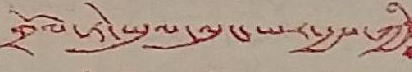གྲོལ་ཏེ་ཡུལ་ལུང་ཡར་རྒྱས་ཀྱི
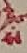ས
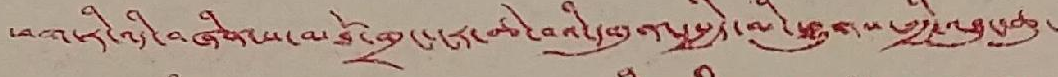ཕག་རི་འདི་བཞིན་ས་མཐོ་གྲང་ངར་ཆེ་བའི་དགུན་དཔྱིད་མི་ཕྱུགས་ཀྱི་འཐུང་ཆུ་
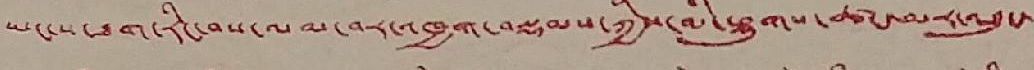ཡང་ས་ཐག་རིང་བས་ལམ་བར་འཁྱག་བསྡམས་ཀྱིས་མི་ཕྱུགས་ཚང་མར་འཐུང་
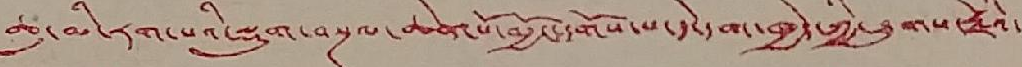ཆུ་མི་རག་པའི་སྡུག་བསྔལ་ཆེན་པོ་མྱོང་དགོས་པ་དེ་དག་ཁྱེད་ཀྱི་ཐུགས་རྗེའི་
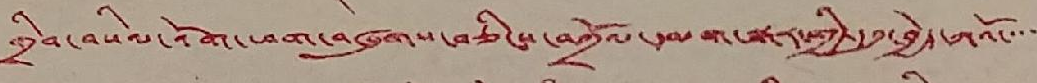གྲིབ་བསིལ་འོག་ཕག་བཞུགས་བཅིངས་བཀྲོལ་དམག་སྒར་གྱི་དའུང་བྱེད་ཀའོ་་་་
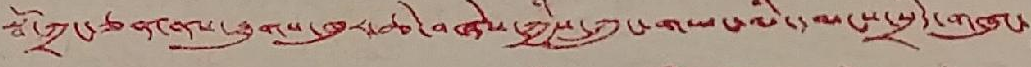སྦོ་ཀྲང་ཅན་ནས་ཐུགས་ཁུར་ཆེ་བཞེས་ཀྱིས་ཀྲུང་གཡང་མི་དམངས་སྲིད་གཞུང་
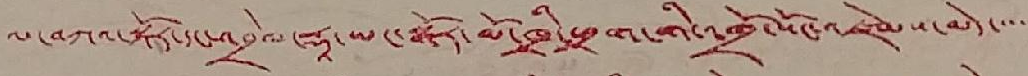ལ་བཀའ་སྐོར་དང་འབྲེལ་རྡཱ་ཡང་སྒོར་མོ་ཁྲི་ཕྲག་གི་འགྲོ་སོང་འཛེམས་མེད་་་་་
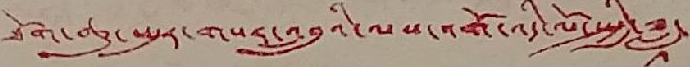ཐོག་ཆུ་ཡུར་གསར་འབྲུའི་ལས་འགོ་འདི་ལོ་སྤྱི་ཟླ་
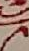༡
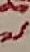༧
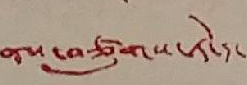ནས་བཙུགས་ཏེ་ད་
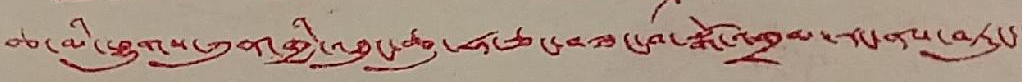ཆ་མི་ཕྱུགས་ཀུན་གྱི་འཐུང་ཆུ་ཧ་ཅང་བཟང་བ་སྒོ་འགྲམ་རང་ནས་བཏུང་་་
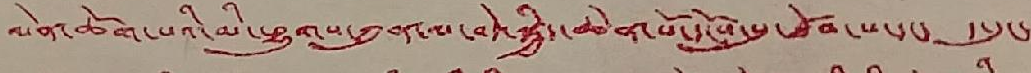ལེན་ཆོག་པའི་མི་ཕྱུགས་ཀུན་ལ་བདེ་སྐྱིད་ཆེན་པོ་དངོས་སུ་ཐོབ་པ་དང་ ད་དུང་
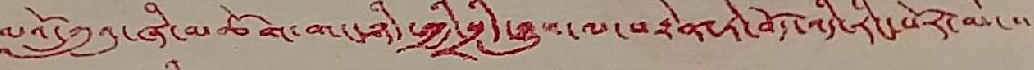མའོ་ཀྲུའུ་ཞི་མཆོག་གང་ཉིད་གྱི་སྲིད་བྱུས་ལ་བརྟེན་ཏེ་བོད་འདི་རིང་པོར་མིང་་
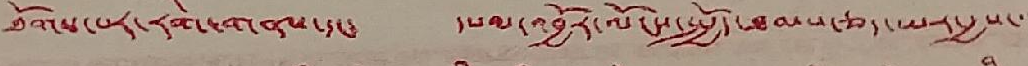ཐོགས་པར་རིག་གནས་དང་ དཔལ་འབྱོར་ལོངས་སྤྱོད་ཐམས་ཅད་ཡར་རྒྱས་་་
